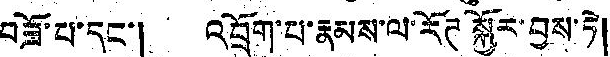བཟོ་པ་དང་། འབྲོག་པ་རྣམས་ལ་རོཊ སྐྱོར་བྱས་ཏེ།
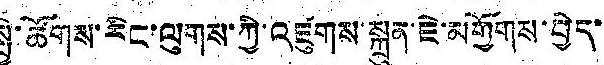སྤྱི་ཚོགས་རིང་ལུགས་ཀྱི་འཛུགས་སྐྲུན་ཇེ་མགྱོགས་བྱེད་
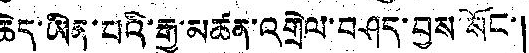ཆེད་ཡིན་པའི་རྒྱུ་མཚན་འགྲེལ་བཤད་བྱས་སོང་།
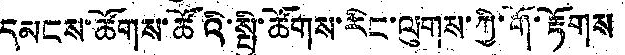དམངས་ཚོགས་ཚོའི་སྤྱི་ཚོགས་རིང་ལུགས་ཀྱི་གོ་རྟོགས
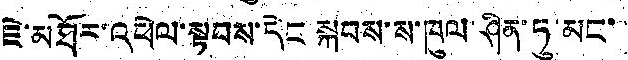ཇེ་མཐོར་འཕེལ་སྟབས་དེང་སྐབས་ས་ཁུལ་ཤིན་ཏུ་མང་
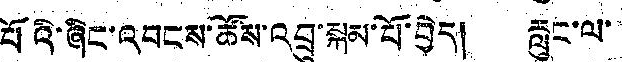པོའི་ཞིང་འབངས་ཚོས་འབྲུ་སྐམ་པོ་བྱེད། རླུང་ལ་
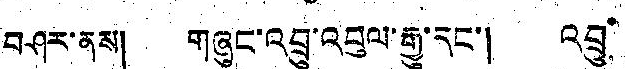བཤར་ནས། གཞུང་འབྲུ་འབུལ་རྒྱུ་དང་། འབྲུ་
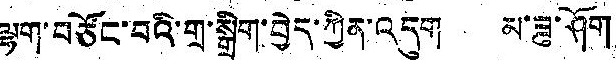ལྷག་བཙོང་བའི་གྲ་སྒྲིག་བྱེད་ཀྱིན་འདུག མ་ཟུ་ཤོག
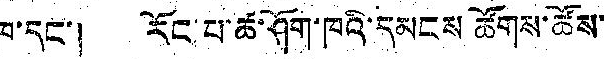ཁ་དང་། རོང་པ་ཚ་ཤོག་ཁའི་དམངས ཚོགས་ཚོས་
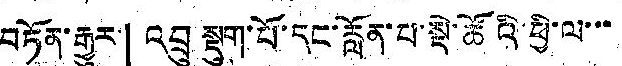བཏོན་རྒྱུར་「འབྲུ སྡུག་པོ་དང་རློན་པ་སྡེ་ཚོའི་ཕྱི་ལ་་་
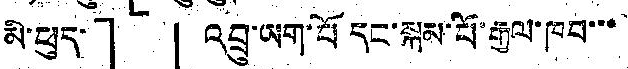མི་ཕུད་」 「འབྲུ་ཡག་པོ དང་སྐམ་པོ་རྒྱལ་ཁབ་་་
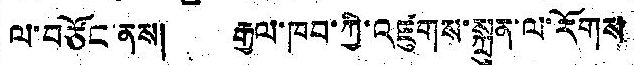ལ་བཙོང་ནས། རྒྱལ་ཁབ་ཀྱི་འཛུགས་སྐྲུན་ལ་རོགས
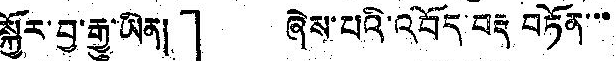སྐྱོར་བྱ་རྒྱུ་ཡིན།」 ཞེས་པའི་འབོད་བརྡ བཏོན་་་
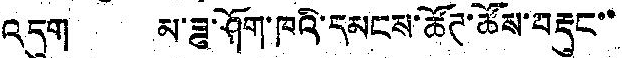འདུག མ་ཟུ་ཤོག་ཁའི་དམངས་ཚོཊ་ཚོས་བརྡུང་་
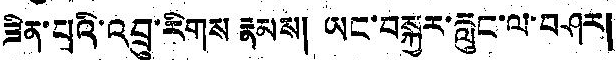ཟིན་པྲའི་འབྲུ་རིགས རྣམས། ཡང་བསྐྱར་རླུང་ལ་བཤར།
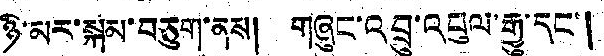ཉི་མར་སྐམ་བཅུག་ནས། གཞུང་འབྲུ་འབུལ་རྒྱུ་དང་།
